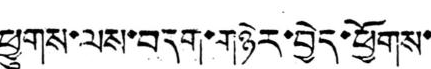ཕྱུགས་ལས་བདག་གཉེར་བྱེད་ཕྱོགས་
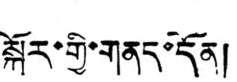སྐོར་གྱི་གནད་དོན།
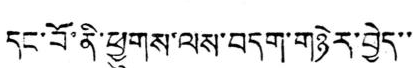དང་བོ་ནི་ཕྱུགས་ལས་བདག་གཉེར་བྱེད་་་
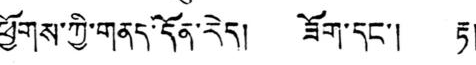ཕྱོགས་ཀྱི་གནད་དོན་རེད། ཟོག་དང་། རྟ།
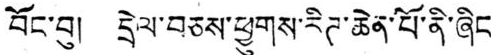བོང་བུ། དྲེལ་བཅས་ཕྱུགས་རིཊ་ཆེན་པོ་ནི་ཞིང་
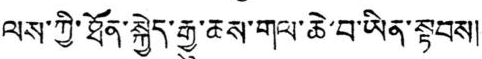ལས་ཀྱི་ཐོན་སྐྱེད་རྒྱུ་ཆས་གལ་ཆེ་བ་ཡིན་སྟབས།
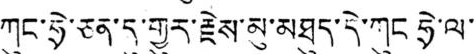ཀུང་ཧྲེ་ཅན་དུ་གྱུར་རྗེས་མུ་མཐུད་དེ་ཀུང ཧྲེ་ལ་་
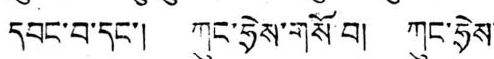དབང་བ་དང་། ཀུང་ཧྲེས་གསོ བ། ཀུང་ཧྲེས་
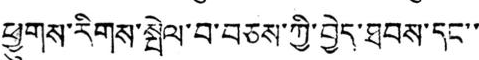ཕྱུགས་རིགས་སྤེལ་བ་བཅས་ཀྱི་བྱེད་ཐབས་དང་་་
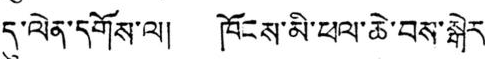དུ་ལེན་དགོས་ལ། ཁོངས་མི་ཕལ་ཆེ་བས་སྒེར་
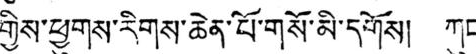གྱིས་ཕྱུགས་རིགས་ཆེན་པོ་གསོ་མི་དགོས། ཀུང་
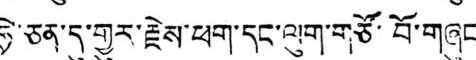ཧྲེ་ཅན་དུ་གྱུར་རྗེས་ཕག་དང་ལུག་གཙོ་བོ་གཞུང་
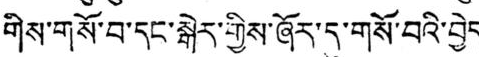གིས་གསོ་བ་དང་སྒེར་གྱིས་ཞོར་དུ་གསོ་བའི་བྱེད་
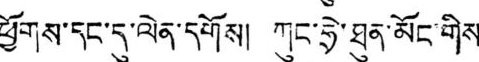ཕྱོགས་དང་དུ་ལེན་དགོས། ཀུང་ཧྲེ་ཐུན་མོང་གིས་
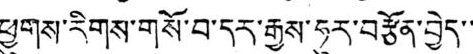ཕྱུགས་རིགས་གསོ་བ་དར་རྒྱས་ཧུར་བརྩོན་བྱེད་་་
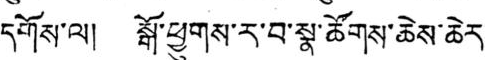དགོས་ལ། སྒོ་ཕྱུགས་ར་བ་སྣ་ཚོགས་ཆེས་ཆེར་
